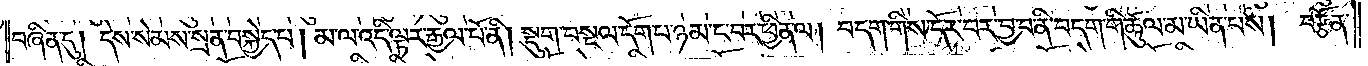བཞིན་དུ། དེས་སེམས་སྲན་བསྐྱེད་པ། མ་ལ་འདི་ལྟར་རྒྱལ་པོ་ནི། སྡུག་བསྔལ་དོག་པ་ཉམ་ང་བར་ཕྱིན་ལ། བདག་གིས་དོར་བར་བྱ་བ་ནི་བདག་གི་ཚུལ་མ་ཡིན་པས། བརྩོན་
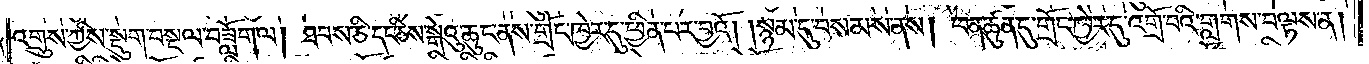འགྲུས་ཀྱིས་སྡུག་བསྔལ་བཟློག་ལ། ཐབས་ཅི་དང་ཅིས་སྒེའུ་ཆུང་ནས་གྲོང་ཁྱེར་དུ་ཕྱིན་པར་བྱའོ། །སྙམ་དུ་བསམས་ནས། ཕན་ཚུན་དུ་གྲོང་ཁྱེར་དུ་འགྲོ་བའི་གླགས་བལྟས་ན།
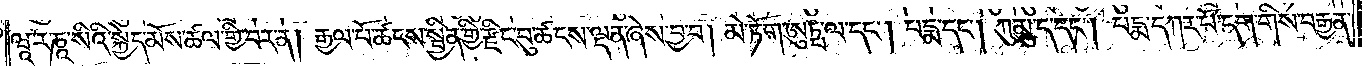ཝཱ་ར་ཎཱ་སིའི་སྐྱེད་མོས་ཚལ་གྱི་བར་ན། རྒྱལ་པོ་ཚངས་སྦྱིན་གྱི་རྫིང་བུ་ཚངས་ལྡན་ཞེས་བྱ་བ། མེ་ཏོག་ཨུཏྤ་ལ་དང༌། པདྨ་དང༌། ཀུ་མུ་ད་དང༌། པདྨ་དཀར་པོ་དག་གིས་བརྒྱན་
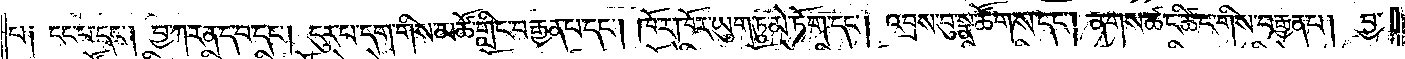པ༑ ངང་པ་དང༌། བྱ་ཀ་རན་ད་བ་དང༌། དུར་པ་དག་གིས་མཚོ་གླིང་བརྒྱན་པ་དང༌། ཁོ་ར་ཁོར་ཡུག་ཏུ་མེ་ཏོག་དང༌། འབྲས་བུ་སྣ་ཚོགས་དང༌། ནགས་ཚང་ཚིང་གིས་བརྒྱན་པ། བྱ་
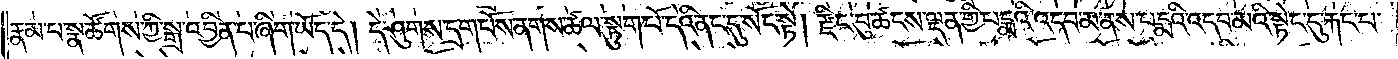རྣམ་པ་སྣ་ཚོགས་ཀྱི་སྒྲ་འབྱིན་པ་ཞིག་ཡོད་དེ། དེ་ཤུགས་དྲག་པོས་ནགས་ཚལ་སྟུག་པོ་དེའི་ནང་དུ་སོང་སྟེ། རྫིང་བུ་ཚངས་ལྡན་གྱི་པདྨའི་འདབ་མ་ནས་པདྨའི་འདབ་མའི་སྟེང་དུ་རྐང་པ་
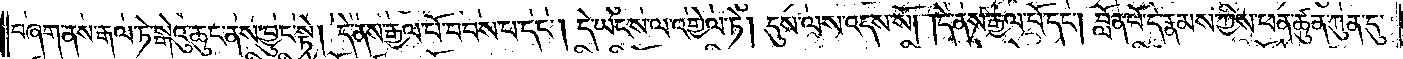བཞག་ནས་རྒལ་ཏེ་སྒེའུ་ཆུང་ནས་བྱུང་སྟེ། དེ་ནས་རྒྱལ་པོ་བབས་པ་དང༌། དེ་ཡང་ས་ལ་འགྱེལ་ཏེ། དུས་ལས་འདས་སོ། །དེ་ནས་རྒྱལ་པོ་དང༌། བློན་པོ་དེ་རྣམས་ཀྱིས་ཕན་ཚུན་ཀུན་དུ་
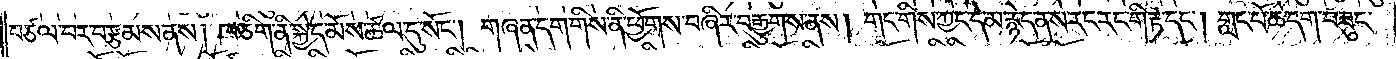བཙལ་བར་བརྩམས་ནས། ཁ་ཅིག་ནི་སྐྱེད་མོས་ཚལ་དུ་སོང༌། གཞན་དག་གིས་ནི་ཕྱོགས་བཞིར་བརྒྱུགས་ནས། གང་གིས་ཀྱང་དེ་མ་རྙེད་ནས་རང་རང་གི་རྟ་དང༌། གླང་པོ་ཆེ་དག་བཟུང་
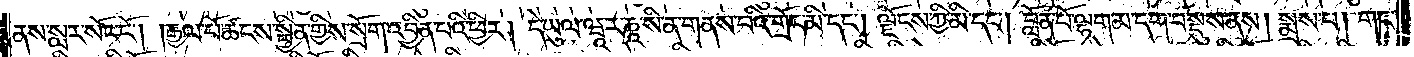ནས་སླར་སོང་ངོ༌། །རྒྱལ་པོ་ཚངས་སྦྱིན་གྱིས་སྲོག་འབྱིན་པའི་ཕྱིར། དེ་ཡུལ་ཝཱ་ར་ཎཱ་སི་ན་གནས་པའི་གྲོང་མི་དང༌། ལྗོངས་ཀྱི་མི་དང༌། བློན་པོ་ལྷག་མ་དག་བསྡུས་ནས། སྨྲས་པ། གང་
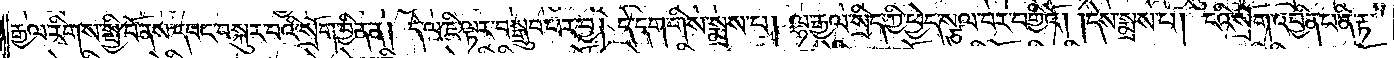རྒྱལ་རིགས་སྤྱི་བོ་ནས་དབང་བསྐུར་བའི་སྲོག་བྱིན་ན། དེ་ལ་ཇི་ལྟར་བསྒྲུབ་པར་བྱ། དེ་དག་གིས་སྨྲས་པ། ལྷ་རྒྱལ་སྲིད་ཀྱི་ཕྱེད་སྩལ་བར་བགྱིའོ། །དེས་སྨྲས་པ། ངའི་སྲོག་འབྱིན་པ་ནི་རྟ་
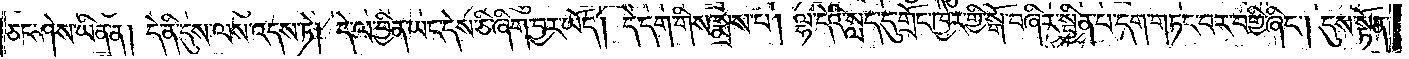ཅང་ཤེས་ཡིན་ན། དེ་ནི་དུས་ལས་འདས་ཏེ། དེ་ལ་བྱིན་ཡང་དེས་ཅི་ཞིག་བྱར་ཡོད། དེ་དག་གིས་སྨྲས་པ། ལྷ་དེའི་སླད་དུ་གྲོང་ཁྱེར་གྱི་སྒོ་བཞིར་སྦྱིན་པ་དག་གཏང་བར་བགྱི་ཞིང༌། དུས་སྟོན་
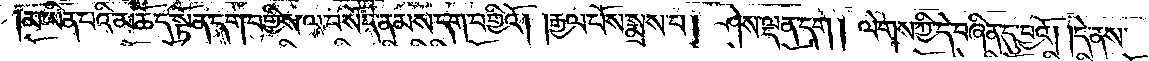མ་ཡིན་པའི་མཆོད་སྟོན་དག་བགྱིས་ལ་བསོད་ནམས་དག་བགྱིའོ། །རྒྱལ་པོས་སྨྲས་པ། ཤེས་ལྡན་དག །ལེགས་ཀྱི་དེ་བཞིན་དུ་བྱའོ། །དེ་ནས་
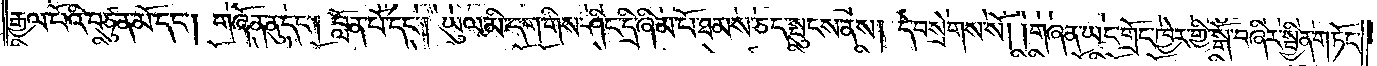རྒྱལ་པོའི་བཙུན་མོ་དང༌། གཞོན་ནུ་དང༌། བློན་པོ་དང༌། ཡུལ་མི་དག་གིས་ཤིང་དྲི་ཞིམ་པོ་ཐམས་ཅད་སྤུངས་ནས། དེ་བསྲེགས་སོ། །གཞན་ཡང་གྲོང་ཁྱེར་གྱི་སྒོ་བཞིར་སྦྱིན་གཏོང་
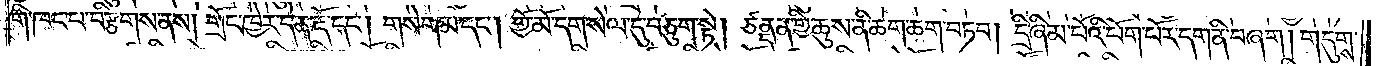གི་ཁང་པ་བརྩིགས་ནས། གྲོང་ཁྱེར་དེ་ན་རྡོ་དང༌། གསེག་མ་དང༌། གྱོ་མོ་དག་སེལ་དུ་བཅུག་སྟེ། ཙནྡན་གྱི་ཆུས་ནི་ཆག་ཆག་བཏབ། དྲི་ཞིམ་པོའི་པོག་པོར་དག་ནི་བཞག། གདུགས་
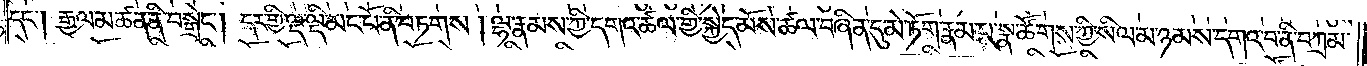དང༌། རྒྱལ་མཚན་ནི་བསྒྲེང༌། དར་གྱི་ལྡ་ལྡི་མང་པོ་ནི་བཏགས། ལྷ་རྣམས་ཀྱི་དགའ་ཚལ་གྱི་སྐྱེད་མོས་ཚལ་བཞིན་དུ་མེ་ཏོག་རྣམ་པ་སྣ་ཚོགས་ཀྱི་སིལ་མ་ཉམས་དགའ་བ་ནི་བཀྲམ་
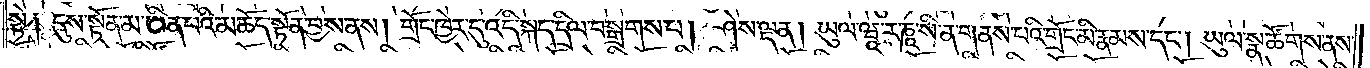སྟེ༑ དུས་སྟོན་མ་ཡིན་པའི་མཆོད་སྟོན་བྱས་ནས། གྲོང་ཁྱེར་དུ་འདི་སྐད་དྲིལ་བསྒྲགས་པ། ཤེས་ལྡན། ཡུལ་ཝཱ་ར་ཎཱ་སི་ན་གནས་པའི་གྲོང་མི་རྣམས་དང༌། ཡུལ་སྣ་ཚོགས་ནས་
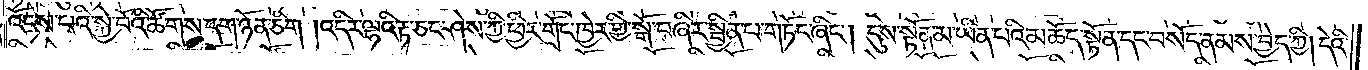འོངས་པའི་སྐྱེ་བོའི་ཚོགས་དག་ཉོན་ཅིག །འདིར་ལྷའི་རྟ་ཅང་ཤེས་ཀྱི་ཕྱིར་གྲོང་ཁྱེར་གྱི་སྒོ་བཞིར་སྦྱིན་པ་གཏོང་ཞིང༌། དུས་སྟོན་མ་ཡིན་པའི་མཆོད་སྟོན་དང་བསོད་ནམས་བྱེད་ཀྱི། དེའི་
